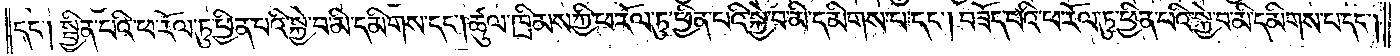དང༌། སྦྱིན་པའི་ཕ་རོལ་ཏུ་ཕྱིན་པའི་སྐྱེ་བ་མི་དམིགས་པ་དང༌། ཚུལ་ཁྲིམས་ཀྱི་ཕ་རོལ་ཏུ་ཕྱིན་པའི་སྐྱེ་བ་མི་དམིགས་པ་དང༌། བཟོད་པའི་ཕ་རོལ་ཏུ་ཕྱིན་པའི་སྐྱེ་བ་མི་དམིགས་པ་དང༌།
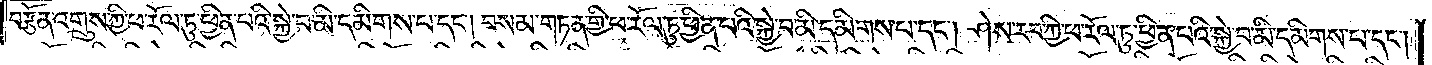བརྩོན་འགྲུས་ཀྱི་ཕ་རོལ་ཏུ་ཕྱིན་པའི་སྐྱེ་བ་མི་དམིགས་པ་དང༌། བསམ་གཏན་གྱི་ཕ་རོལ་ཏུ་ཕྱིན་པའི་སྐྱེ་བ་མི་དམིགས་པ་དང༌། ཤེས་རབ་ཀྱི་ཕ་རོལ་ཏུ་ཕྱིན་པའི་སྐྱེ་བ་མི་དམིགས་པ་དང༌།
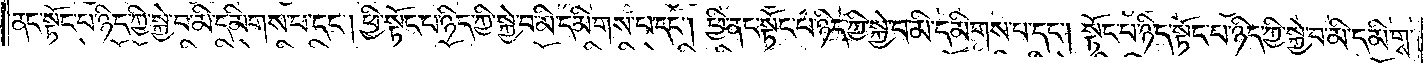ནང་སྟོང་པ་ཉིད་ཀྱི་སྐྱེ་བ་མི་དམིགས་པ་དང༌། ཕྱི་སྟོང་པ་ཉིད་ཀྱི་སྐྱེ་བ་མི་དམིགས་པ་དང༌། ཕྱི་ནང་སྟོང་པ་ཉིད་ཀྱི་སྐྱེ་བ་མི་དམིགས་པ་དང༌། སྟོང་པ་ཉིད་སྟོང་པ་ཉིད་ཀྱི་སྐྱེ་བ་མི་དམིགས་
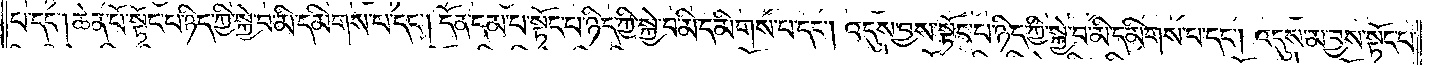པ་དང༌། ཆེན་པོ་སྟོང་པ་ཉིད་ཀྱི་སྐྱེ་བ་མི་དམིགས་པ་དང༌། དོན་དམ་པ་སྟོང་པ་ཉིད་ཀྱི་སྐྱེ་བ་མི་དམིགས་པ་དང༌། འདུས་བྱས་སྟོང་པ་ཉིད་ཀྱི་སྐྱེ་བ་མི་དམིགས་པ་དང༌། འདུས་མ་བྱས་སྟོང་པ་
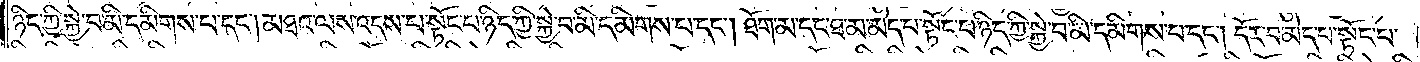ཉིད་ཀྱི་སྐྱེ་བ་མི་དམིགས་པ་དང༌། མཐའ་ལས་འདས་པ་སྟོང་པ་ཉིད་ཀྱི་སྐྱེ་བ་མི་དམིགས་པ་དང༌། ཐོག་མ་དང་ཐ་མ་མེད་པ་སྟོང་པ་ཉིད་ཀྱི་སྐྱེ་བ་མི་དམིགས་པ་དང༌། དོར་བ་མེད་པ་སྟོང་པ་
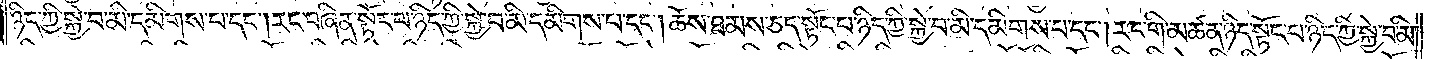ཉིད་ཀྱི་སྐྱེ་བ་མི་དམིགས་པ་དང༌། རང་བཞིན་སྟོང་པ་ཉིད་ཀྱི་སྐྱེ་བ་མི་དམིགས་པ་དང༌། ཆོས་ཐམས་ཅད་སྟོང་པ་ཉིད་ཀྱི་སྐྱེ་བ་མི་དམིགས་པ་དང༌། རང་གི་མཚན་ཉིད་སྟོང་པ་ཉིད་ཀྱི་སྐྱེ་བ་མི་
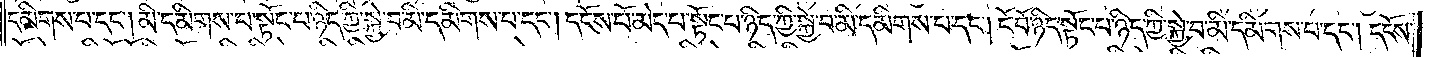དམིགས་པ་དང༌། མི་དམིགས་པ་སྟོང་པ་ཉིད་ཀྱི་སྐྱེ་བ་མི་དམིགས་པ་དང༌། དངོས་པོ་མེད་པ་སྟོང་པ་ཉིད་ཀྱི་སྐྱེ་བ་མི་དམིགས་པ་དང༌། ངོ་བོ་ཉིད་སྟོང་པ་ཉིད་ཀྱི་སྐྱེ་བ་མི་དམིགས་པ་དང༌། དངོས་
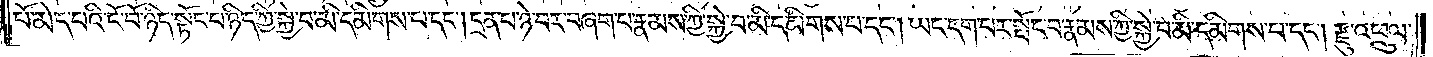པོ་མེད་པའི་ངོ་བོ་ཉིད་སྟོང་པ་ཉིད་ཀྱི་སྐྱེ་བ་མི་དམིགས་པ་དང༌། དྲན་པ་ཉེ་བར་བཞག་པ་རྣམས་ཀྱི་སྐྱེ་བ་མི་དམིགས་པ་དང༌། ཡང་དག་པར་སྤོང་བ་རྣམས་ཀྱི་སྐྱེ་བ་མི་དམིགས་པ་དང༌། རྫུ་འཕྲུལ་
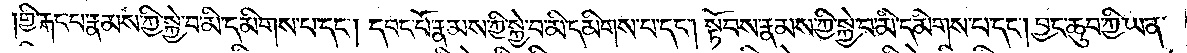གྱི་རྐང་པ་རྣམས་ཀྱི་སྐྱེ་བ་མི་དམིགས་པ་དང༌། དབང་པོ་རྣམས་ཀྱི་སྐྱེ་བ་མི་དམིགས་པ་དང༌། སྟོབས་རྣམས་ཀྱི་སྐྱེ་བ་མི་དམིགས་པ་དང༌། བྱང་ཆུབ་ཀྱི་ཡན་
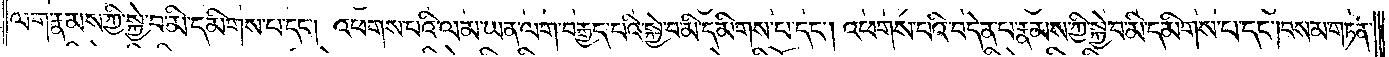ལག་རྣམས་ཀྱི་སྐྱེ་བ་མི་དམིགས་པ་དང༌། འཕགས་པའི་ལམ་ཡན་ལག་བརྒྱད་པའི་སྐྱེ་བ་མི་དམིགས་པ་དང༌། འཕགས་པའི་བདེན་པ་རྣམས་ཀྱི་སྐྱེ་བ་མི་དམིགས་པ་དང༌། བསམ་གཏན་
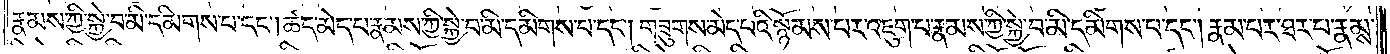རྣམས་ཀྱི་སྐྱེ་བ་མི་དམིགས་པ་དང༌། ཚད་མེད་པ་རྣམས་ཀྱི་སྐྱེ་བ་མི་དམིགས་པ་དང༌། གཟུགས་མེད་པའི་སྙོམས་པར་འཇུག་པ་རྣམས་ཀྱི་སྐྱེ་བ་མི་དམིགས་པ་དང༌། རྣམ་པར་ཐར་པ་རྣམས་
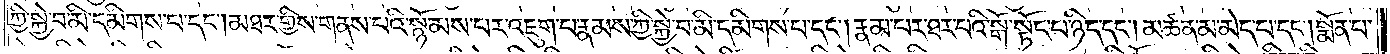ཀྱི་སྐྱེ་བ་མི་དམིགས་པ་དང༌། མཐར་གྱིས་གནས་པའི་སྙོམས་པར་འཇུག་པ་རྣམས་ཀྱི་སྐྱེ་བ་མི་དམིགས་པ་དང༌། རྣམ་པར་ཐར་པའི་སྒོ་སྟོང་པ་ཉིད་དང༌། མཚན་མ་མེད་པ་དང༌། སྨོན་པ་
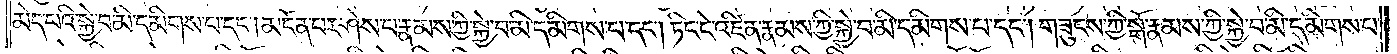མེད་པའི་སྐྱེ་བ་མི་དམིགས་པ་དང༌། མངོན་པར་ཤེས་པ་རྣམས་ཀྱི་སྐྱེ་བ་མི་དམིགས་པ་དང༌། ཏིང་ངེ་འཛིན་རྣམས་ཀྱིས་སྐྱེ་བ་མི་དམིགས་པ་དང༌། གཟུངས་ཀྱི་སྒོ་རྣམས་ཀྱི་སྐྱེ་བ་མི་དམིགས་པ་
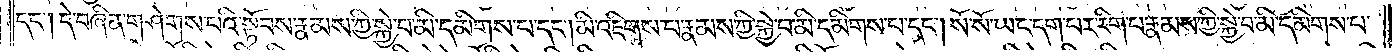དང༌། དེ་བཞིན་གཤེགས་པའི་སྟོབས་རྣམས་ཀྱི་སྐྱེ་བ་མི་དམིགས་པ་དང༌། མི་འཇིགས་པ་རྣམས་ཀྱི་སྐྱེ་བ་མི་དམིགས་པ་དང༌། སོ་སོ་ཡང་དག་པར་རིག་པ་རྣམས་ཀྱི་སྐྱེ་བ་མི་དམིགས་པ་
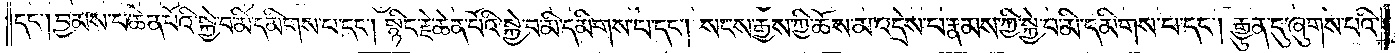དང༌། བྱམས་པ་ཆེན་པོའི་སྐྱེ་བ་མི་དམིགས་པ་དང༌། སྙིང་རྗེ་ཆེན་པོའི་སྐྱེ་བ་མི་དམིགས་པ་དང༌། སངས་རྒྱས་ཀྱི་ཆོས་མ་འདྲེས་པ་རྣམས་ཀྱི་སྐྱེ་བ་མི་དམིགས་པ་དང༌། རྒྱུན་དུ་ཞུགས་པའི་
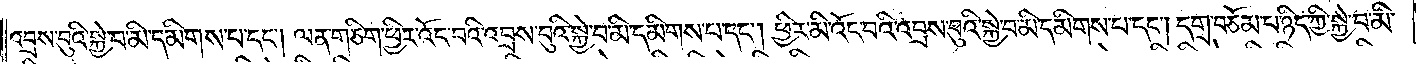འབྲས་བུའི་སྐྱེ་བ་མི་དམིགས་པ་དང༌། ལན་གཅིག་ཕྱིར་འོང་བའི་འབྲས་བུའི་སྐྱེ་བ་མི་དམིགས་པ་དང༌། ཕྱིར་མི་འོང་བའི་འབྲས་བུའི་སྐྱེ་བ་མི་དམིགས་པ་དང༌། དགྲ་བཅོམ་པ་ཉིད་ཀྱི་སྐྱེ་བ་མི་
